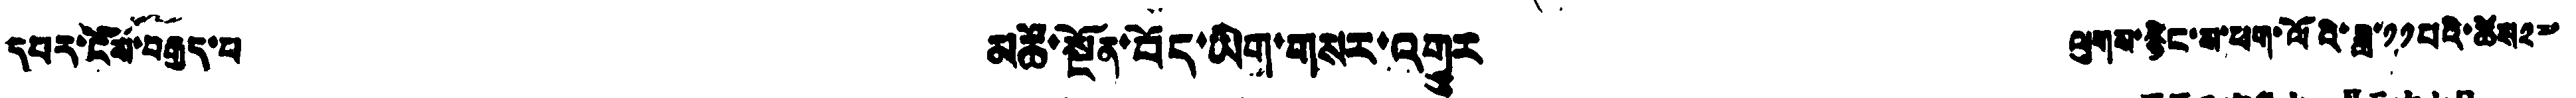དཔར་ངོས་བརྒྱད་པ མཚོ་སྔོན་བོད་ཡིག་གསར་འགྱུར ལུགས་རྙིང་ས་ཕག་ལོའི་ཟླ ༡༡ ཚེས ༢༧
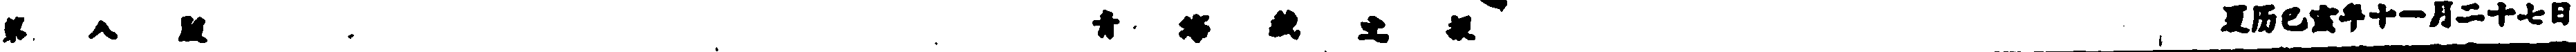第 八 版 青 海 藏 文 报 夏历己亥年十一月二十七日
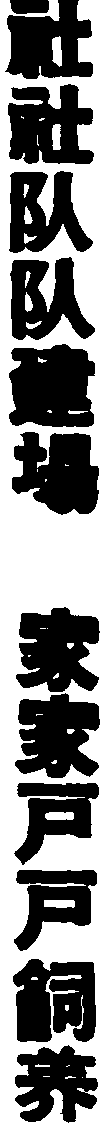社社队队建場 家家戶戶飼养
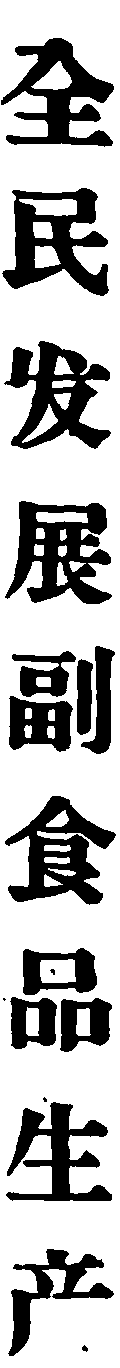全民发展副食品生产
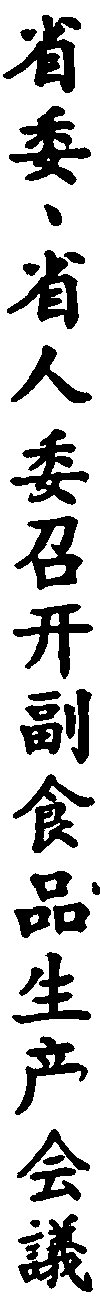省委、省人委召开副食品生产会議
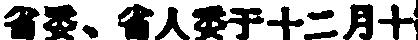省委、省人委于十二月十
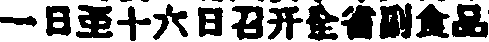一日至十六日召开全省副食品
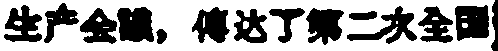生产会議，傳达了第二次全国
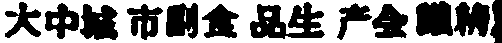大中城市副食品生产会議精
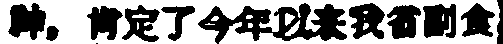神，肯定了今年以来我省副食
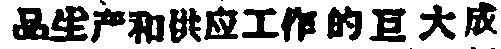品生产和供应工作的巨大成
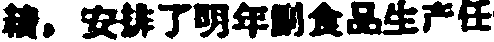績，安排了明年副食品生产任
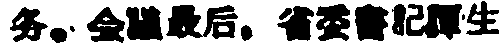务。会議最后，省委書記譚生
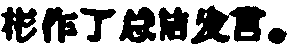彬作了总結发言。
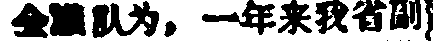会議认为，一年来我省副
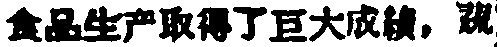食品生产取得了巨大成績，蔬
